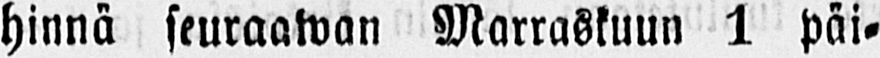hinnä seuraawan Marraskuun 1 päi-
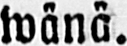wänä.
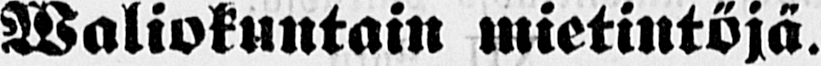Waliokuntain mietintöjä.
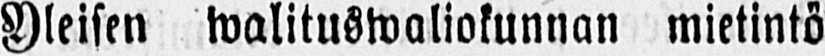Yleisen walituswaliokunnan mietintö
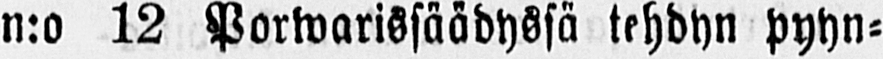n:o 12 Porwarissäädyssä tehdyn pyyn-
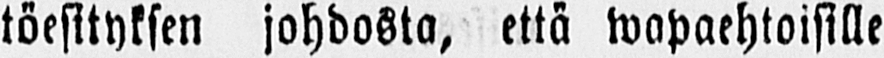töesityksen johdosta, että wapaehtoisille
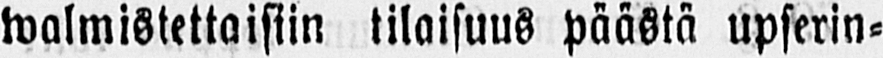walmistettaisiin tilaisuus päästä upserin-
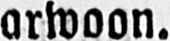arwoon.
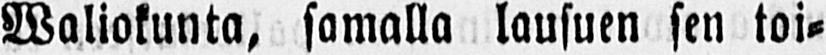Waliokunta, samalla lausuen sen toi-
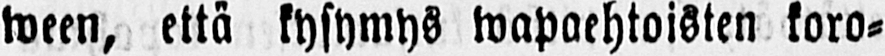ween, että kysymys wapaehtoisten koro-
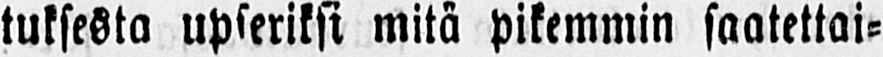tuksesta upseriksi mitä pikemmin saatettai-
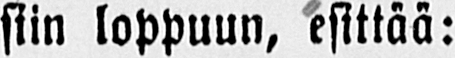siin loppuun, esittää:
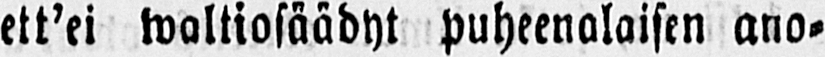ett'ei waltiosäädyt puheenalaisen ano-
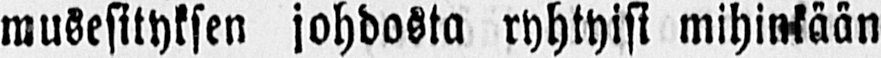musesityksen johdosta ryhtyisi mihinkään
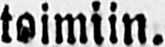toimiin.
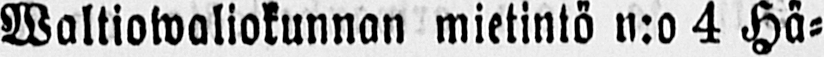Waltiowaliokunnan mietintö n:o 4 Hä-
